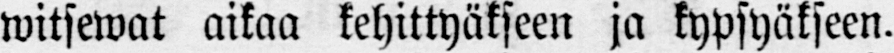witsewat aikaa kehittyäkseen ja kypsyäkseen.
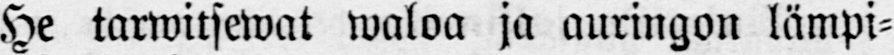He tarwitsewat waloa ja auringon lämpi-
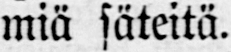miä säteitä.
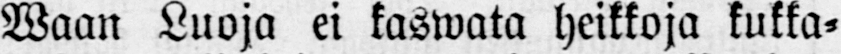Waan Luoja ei kaswata heikkoja kukka-
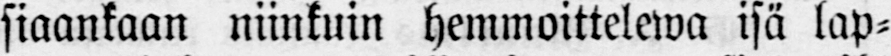siaankaan niinkuin hemmoittelewa isä lap-
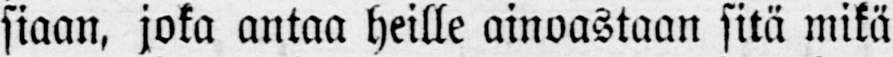siaan, joka antaa heille ainoastaan sitä mikä
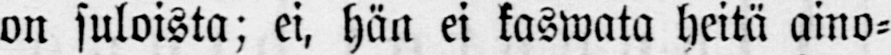on suloista; ei, hän ei kaswata heitä aino-
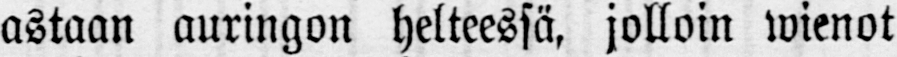astaan auringon helteessä, jolloin wienot
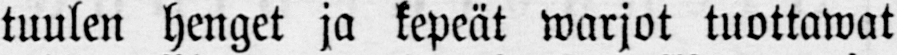tuulen henget ja kepeät warjot tuottawat
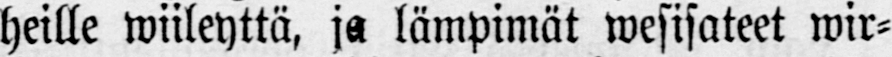heille wiileyttä, ja lämpimät wesisateet wir-
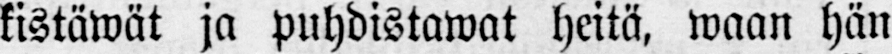kistäwät ja puhdistawat heitä, waan hän
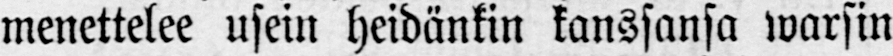menettelee usein heidänkin kanssansa warsin
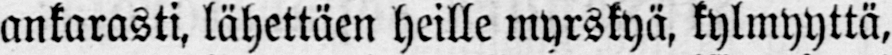ankarasti, lähettäen heille myrskyä, kylmyyttä,
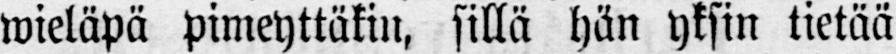wieläpä pimeyttäkin, sillä hän yksin tietää
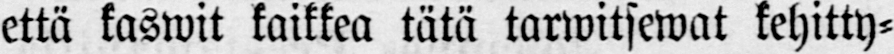että kaswit kaikkea tätä tarwitsewat kehitty-
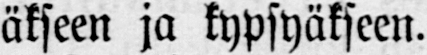äkseen ja kypsyäkseen.
